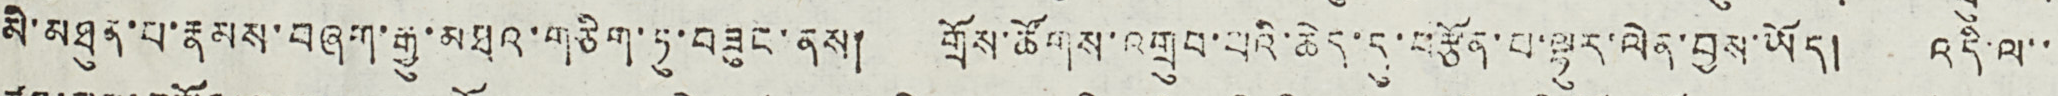མི་མཐུན་པ་རྣམས་བཞག་རྒྱུ་མཐའ་གཅིག་ཏུ་བཟུང་ནས། གྲོས་ཚོགས་འགྲུབ་པའི་ཆེད་དུ་བརྩོན་པ་ལྷུར་ལེན་བྱས་ཡོད། འདི་ལ་་
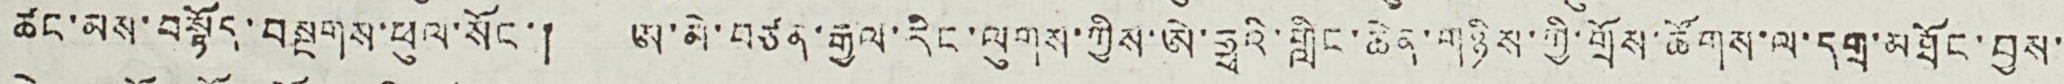ཚང་མས་བསྟོད་བསྔགས་ཕུལ་སོང་། ཨ་མེ་བཙན་རྒྱལ་རིང་ལུགས་ཀྱིས་ཨེ་ཧྥའི་གླིང་ཆེན་གཉིས་ཀྱི་གྲོས་ཚོགས་ལ་དགྲ་མཐོང་བྱས་
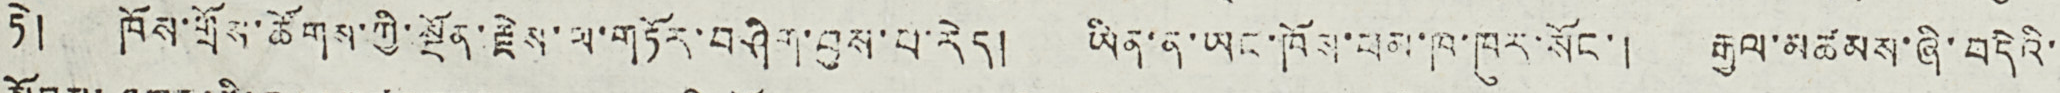ཏེ། ཁོས་གྲོས་ཚོགས་ཀྱི་སྔོན་རྗེས་ལ་གཏོར་བཤིག་བྱས་པ་རེད། ཡིན་ན་ཡང་ཁོས་ཕམ་ཁ་ཁུར་སོང་། རྒྱལ་མཚམས་ཞི་བདེའི་
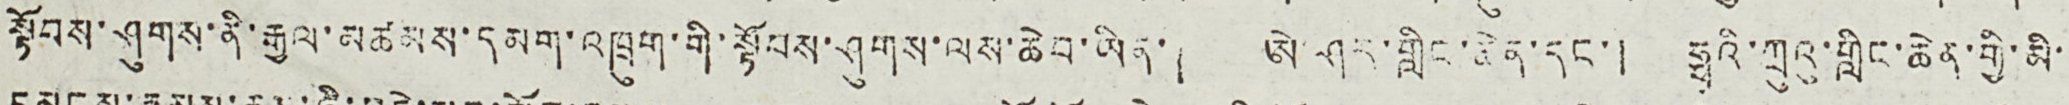སྟོབས་ཤུགས་ནི་རྒྱལ་མཚམས་དམག་འཁྲུག་གི་སྟོབས་ཤུགས་ལས་ཆེབ་ཡིན་། ཨེ་ཤར་གླིང་ཆེན་དང་། ཧྥའི་ཀྲུའུ་གླིང་ཆེན་གྱི་མི་
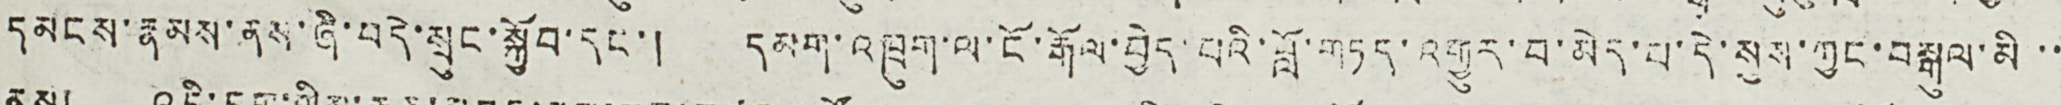དམངས་རྣམས་ནས་ཞི་བདེ་སྲུང་སྐྱོབ་དང་། དམག་འཁྲུག་ལ་ངོ་རྒོལ་བྱེད་པའི་བློ་གཏད་འགྱུར་བ་མེད་པ་དེ་སུས་ཀྱང་བསྒུལ་མི་་
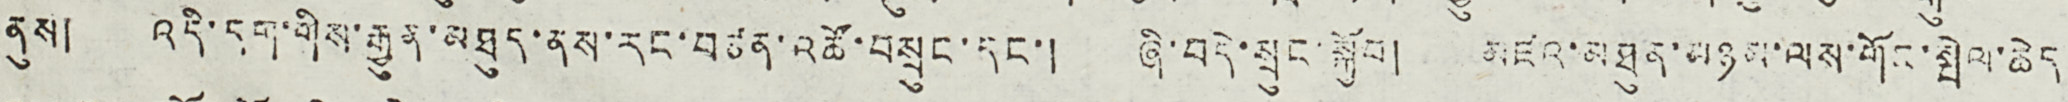ནུས། འདི་དག་གིས་རྒྱུན་མཐུད་ནས་རང་བཙན་འཚོ་བསྲུང་དང་། ཞི་བདེ་སྲུང་སྐྱོབ། མཛའ་མཐུན་མཉམ་ལས་གོང་སྤེལ་ཆེད
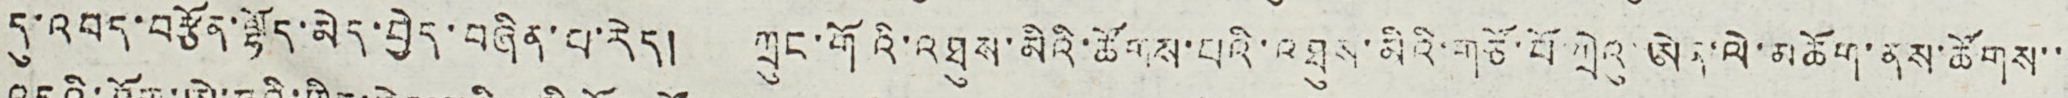དུ་འབད་བརྩོན་ལྷོད་མེད་བྱེད་བཞིན་པ་རེད། ཀྲུང་གོའི་འཐས་མིའི་ཚོགས་པའི་འཐུས་མིའི་གཙོ་བོ་ཀྲེའུ་ཨེན་ལེ་མཆོག་ནས་ཚོགས་་
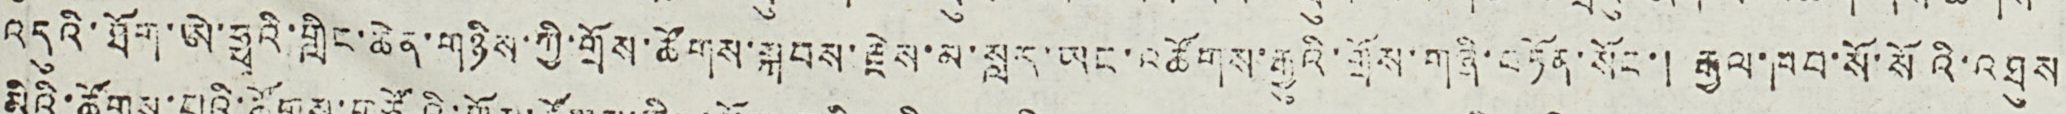འདུའི་ཐོག་ཨེ་ཧྥའི་གླིང་ཆེན་གཉིས་ཀྱི་གྲོས་ཚོགས་སྐབས་རྗེས་མ་སླར་ཡང་འཚོགས་རྒྱུའི་གྲོས་གཞི་བཏོན་སོང་། རྒྱལ་ཁབ་སོ་སོའི་འཐུས
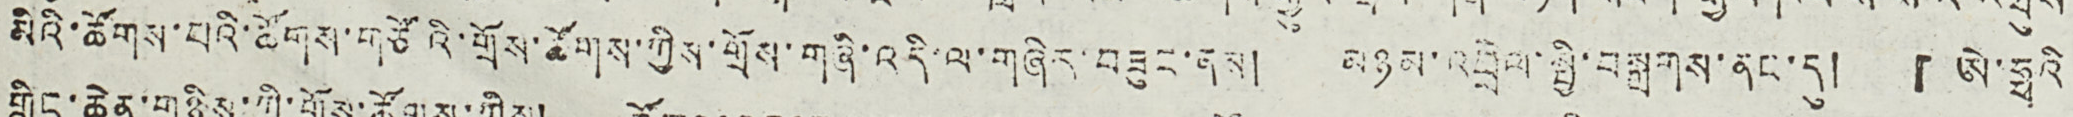མིའི་ཚོགས་པའི་ཚོགས་གཙོའི་གྲོས་ཚོགས་ཀྱིས་གྲོས་གཞི་འདི་ལ་གཞིར་བཟུང་ནས། མཉམ་འབྲེལ་སྤྱི་བསྒྲགས་ནང་དུ། 『ཨེ་ཧྥའི
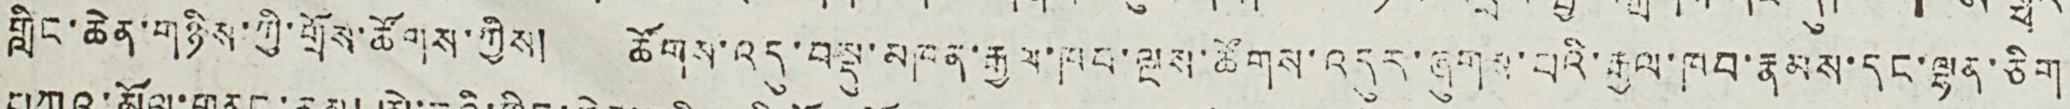གླིང་ཆེན་གཉིས་ཀྱི་གྲོས་ཚོགས་ཀྱིས། ཚོགས་འདུ་བསྡུ་མཁན་རྒྱལ་ཁབ་ལྔས་ཚོགས་འདུར་ཞུགས་པའི་རྒྱལ་ཁབ་རྣམས་དང་ལྷན་ཅིག
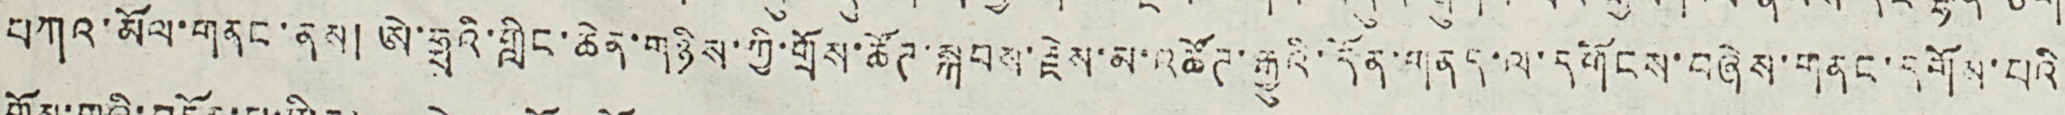བཀའ་མོལ་གནང་ནས། ཨེ་ཧྥའི་གླིང་ཆེན་གཉིས་ཀྱི་གྲོས་ཚོཊ་སྐབས་རྗེས་མ་འཚོཊ་རྒྱུའི་དོན་གནད་ལ་དགོངས་བཞེས་གནང་དགོས་པའི
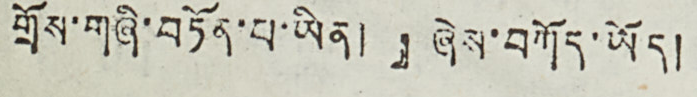གྲོས་གཞི་བཏོན་པ་ཡིན།』ཞེས་བཀོད་ཡོད།
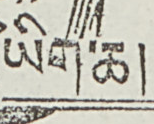ཡིག་ཆ།
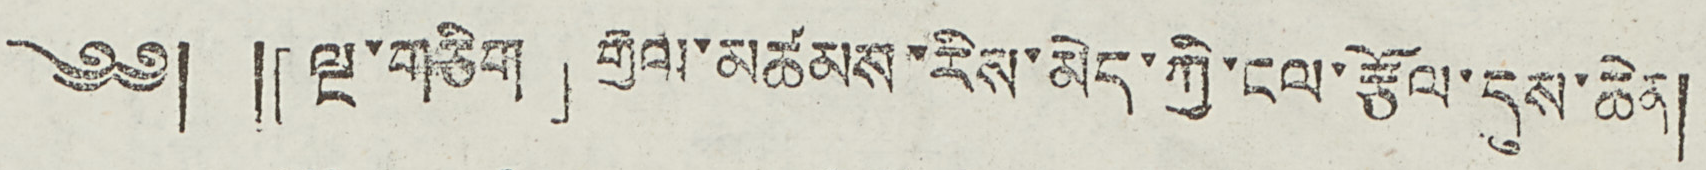༄༅། །「ལྔ་གཅིག」རྒྱལ་མཚམས་རིས་མེད་ཀྱི་ངལ་རྩོལ་དུས་ཆེན།
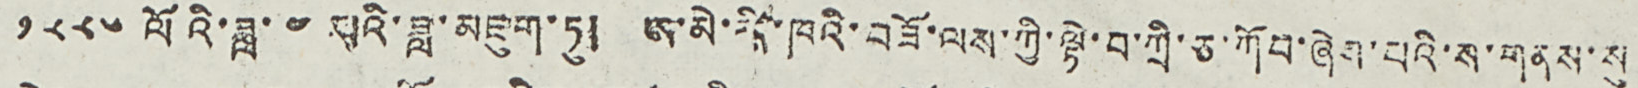༡༨༨༦ ལོའི་ཟླ་ ༤ པའི་ཟླ་མཇུག་ཏུ། ཨ་མེ་རི་ཁའི་བཟོ་ལས་ཀྱི་ལྟེ་བ་ཀྲི་ཅ་ཀོབ་ཞེས་པའི་ས་གནས་སུ
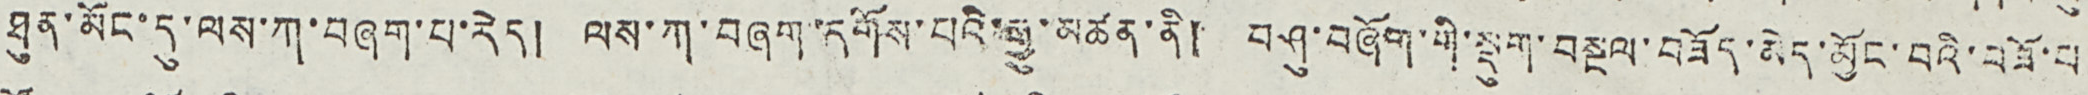ཐུན་མོང་དུ་ལས་ཀ་བཞག་པ་རེད། ལས་ཀ་བཞག་དགོས་པའི་པའི་རྒྱུ་མཚན་ནི། བཤུ་བཞོག་གི་སྡུག་བསྔལ་བཟོད་མེད་མྱོང་བའི་བཟོ་པ
